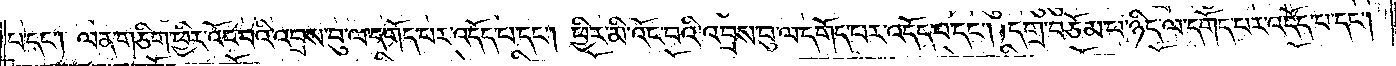པ་དང༌། ལན་གཅིག་ཕྱིར་འོང་བའི་འབྲས་བུ་ལ་དགོད་པར་འདོད་པ་དང༌། ཕྱིར་མི་འོང་བའི་འབྲས་བུ་ལ་དགོད་པར་འདོད་པ་དང༌། དགྲ་བཅོམ་པ་ཉིད་ལ་དགོད་པར་འདོད་པ་དང༌།
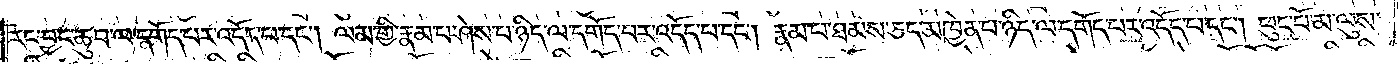རང་བྱང་ཆུབ་ལ་དགོད་པར་འདོད་པ་དང༌། ལམ་གྱི་རྣམ་པ་ཤེས་པ་ཉིད་ལ་དགོད་པར་འདོད་པ་དང༌། རྣམ་པ་ཐམས་ཅད་མཁྱེན་པ་ཉིད་ལ་དགོད་པར་འདོད་པ་དང༌། ཕུང་པོ་མ་ལུས་
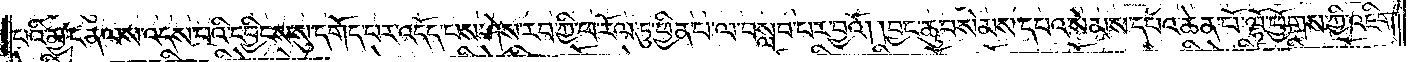པའི་མྱ་ངན་ལས་འདས་པའི་དབྱིངས་སུ་དགོད་པར་འདོད་པས་ཤེས་རབ་ཀྱི་ཕ་རོལ་ཏུ་ཕྱིན་པ་ལ་བསླབ་པར་བྱའོ། །བྱང་ཆུབ་སེམས་དཔའ་སེམས་དཔའ་ཆེན་པོ་ལྷོ་ཕྱོགས་ཀྱི་འཇིག་
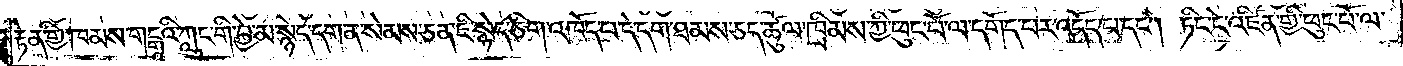རྟེན་གྱི་ཁམས་གངྒཱའི་ཀླུང་གི་བྱེ་མ་སྙེད་དག་ན་སེམས་ཅན་ཇི་སྙེད་ཅིག་འཁོད་པ་དེ་དག་ཐམས་ཅད་ཚུལ་ཁྲིམས་ཀྱི་ཕུང་པོ་ལ་དགོད་པར་འདོད་པ་དང༌། ཏིང་ངེ་འཛིན་གྱི་ཕུང་པོ་ལ་
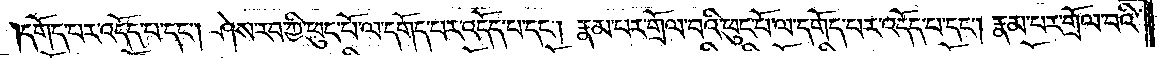དགོད་པར་འདོད་པ་དང༌། ཤེས་རབ་ཀྱི་ཕུང་པོ་ལ་དགོད་པར་འདོད་པ་དང༌། རྣམ་པར་གྲོལ་བའི་ཕུང་པོ་ལ་དགོད་པར་འདོད་པ་དང༌། རྣམ་པར་གྲོལ་བའི་
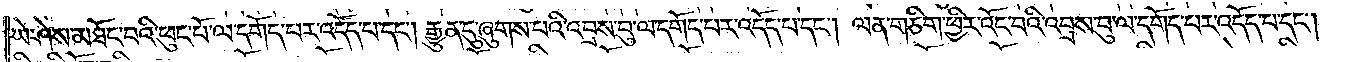ཡེ་ཤེས་མཐོང་བའི་ཕུང་པོ་ལ་དགོད་པར་འདོད་པ་དང༌། རྒྱུན་དུ་ཞུགས་པའི་འབྲས་བུ་ལ་དགོད་པར་འདོད་པ་དང༌། ལན་གཅིག་ཕྱིར་འོང་བའི་འབྲས་བུ་ལ་དགོད་པར་འདོད་པ་དང༌།
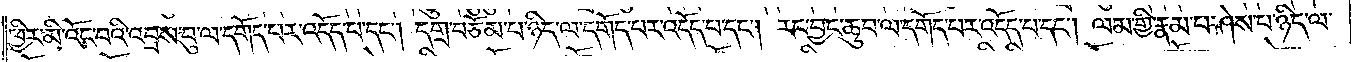ཕྱིར་མི་འོང་བའི་འབྲས་བུ་ལ་དགོད་པར་འདོད་པ་དང༌། དགྲ་བཅོམ་པ་ཉིད་ལ་དགོད་པར་འདོད་པ་དང༌། རང་བྱང་ཆུབ་ལ་དགོད་པར་འདོད་པ་དང༌། ལམ་གྱི་རྣམ་པ་ཤེས་པ་ཉིད་ལ་
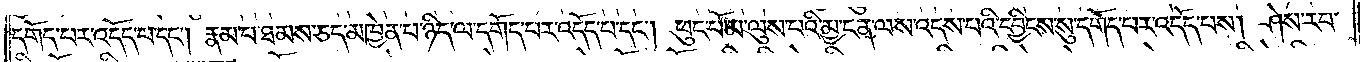དགོད་པར་འདོད་པ་དང༌། རྣམ་པ་ཐམས་ཅད་མཁྱེན་པ་ཉིད་ལ་དགོད་པར་འདོད་པ་དང༌། ཕུང་པོ་མ་ལུས་པའི་མྱ་ངན་ལས་འདས་པའི་དབྱིངས་སུ་དགོད་པར་འདོད་པས། ཤེས་རབ་
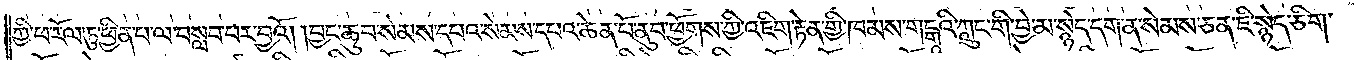ཀྱི་ཕ་རོལ་ཏུ་ཕྱིན་པ་ལ་བསླབ་པར་བྱའོ། །བྱང་ཆུབ་སེམས་དཔའ་སེམས་དཔའ་ཆེན་པོ་ནུབ་ཕྱོགས་ཀྱི་འཇིག་རྟེན་གྱི་ཁམས་གངྒཱའི་ཀླུང་གི་བྱེ་མ་སྙེད་དག་ན་སེམས་ཅན་ཇི་སྙེད་ཅིག་
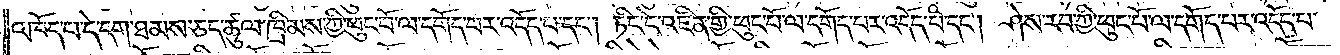འཁོད་པ་དེ་དག་ཐམས་ཅད་ཚུལ་ཁྲིམས་ཀྱི་ཕུང་པོ་ལ་དགོད་པར་འདོད་པ་དང༌། ཏིང་ངེ་འཛིན་གྱི་ཕུང་པོ་ལ་དགོད་པར་འདོད་པ་དང༌། ཤེས་རབ་ཀྱི་ཕུང་པོ་ལ་དགོད་པར་འདོད་པ་
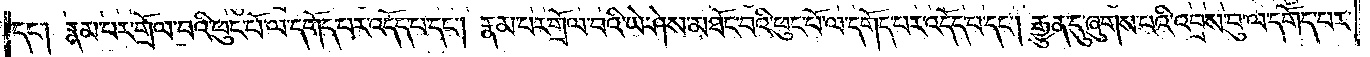དང༌། རྣམ་པར་གྲོལ་བའི་ཕུང་པོ་ལ་དགོད་པར་འདོད་པ་དང༌། རྣམ་པར་གྲོལ་བའི་ཡེ་ཤེས་མཐོང་བའི་ཕུང་པོ་ལ་དགོད་པར་འདོད་པ་དང༌། རྒྱུན་དུ་ཞུགས་པའི་འབྲས་བུ་ལ་དགོད་པར་
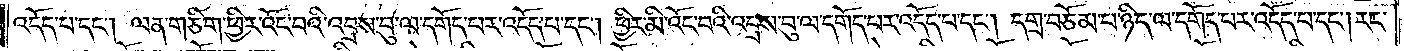འདོད་པ་དང༌། ལན་གཅིག་ཕྱིར་འོང་བའི་འབྲས་བུ་ལ་དགོད་པར་འདོད་པ་དང༌། ཕྱིར་མི་འོང་བའི་འབྲས་བུ་ལ་དགོད་པར་འདོད་པ་དང༌། དགྲ་བཅོམ་པ་ཉིད་ལ་དགོད་པར་འདོད་པ་དང༌། རང་
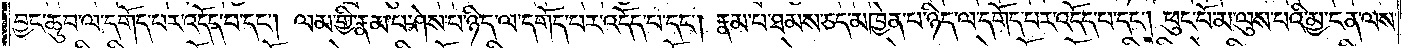བྱང་ཆུབ་ལ་དགོད་པར་འདོད་པ་དང༌། ལམ་གྱི་རྣམ་པ་ཤེས་པ་ཉིད་ལ་དགོད་པར་འདོད་པ་དང༌། རྣམ་པ་ཐམས་ཅད་མཁྱེན་པ་ཉིད་ལ་དགོད་པར་འདོད་པ་དང༌། ཕུང་པོ་མ་ལུས་པའི་མྱ་ངན་ལས་
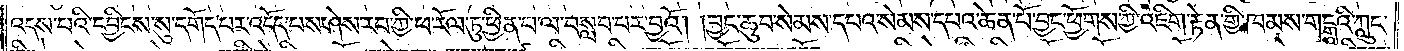འདས་པའི་དབྱིངས་སུ་དགོད་པར་འདོད་པས་ཤེས་རབ་ཀྱི་ཕ་རོལ་ཏུ་ཕྱིན་པ་ལ་བསླབ་པར་བྱའོ། །བྱང་ཆུབ་སེམས་དཔའ་སེམས་དཔའ་ཆེན་པོ་བྱང་ཕྱོགས་ཀྱི་འཇིག་རྟེན་གྱི་ཁམས་གངྒཱའི་ཀླུང་
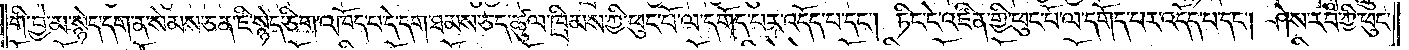གི་བྱེ་མ་སྙེད་དག་ན་སེམས་ཅན་ཇི་སྙེད་ཅིག་འཁོད་པ་དེ་དག་ཐམས་ཅད་ཚུལ་ཁྲིམས་ཀྱི་ཕུང་པོ་ལ་དགོད་པར་འདོད་པ་དང༌། ཏིང་ངེ་འཛིན་གྱི་ཕུང་པོ་ལ་དགོད་པར་འདོད་པ་དང༌། ཤེས་རབ་ཀྱི་ཕུང་
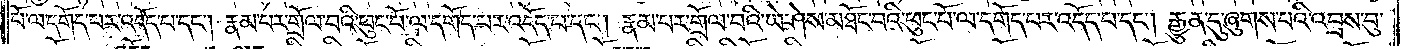པོ་ལ་དགོད་པར་འདོད་པ་དང༌། རྣམ་པར་གྲོལ་བའི་ཕུང་པོ་ལ་དགོད་པར་འདོད་པ་དང༌། རྣམ་པར་གྲོལ་བའི་ཡེ་ཤེས་མཐོང་བའི་ཕུང་པོ་ལ་དགོད་པར་འདོད་པ་དང༌། རྒྱུན་དུ་ཞུགས་པའི་འབྲས་བུ་
